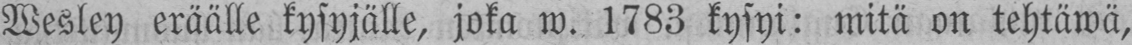Wesley eräälle kysyjälle, joka w. 1783 kysyi: mitä on tehtäwä,
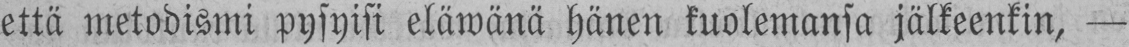että metodismi pysyisi eläwänä hänen kuolemansa jälkeenkin,—
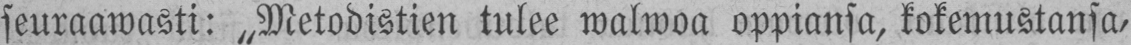seuraawasti: „Metodistien tulee walwoa oppiansa, kokemustansa,
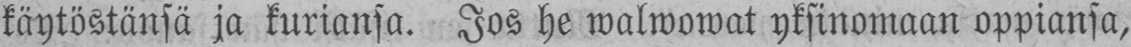käytöstänsä ja kuriansa. Jos he walwowat yksinomaan oppiansa,
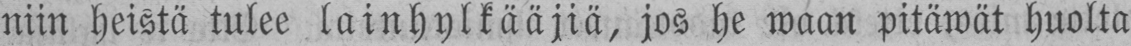niin heistä tulee lainhylkääjiä, jos he waan pitäwät huolta
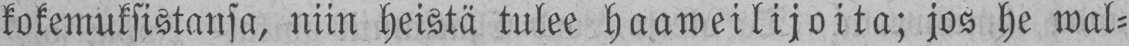kokemuksistansa, niin heistä tulee haaweilijoita; jos he wal-
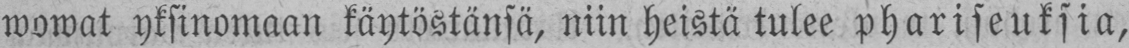wowat yksinomaan käytöstänsä, niin heistä tulee phariseuksia,
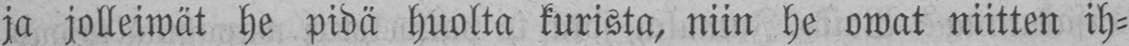ja jolleiwät he pidä huolta kurista, niin he owat niitten ih-
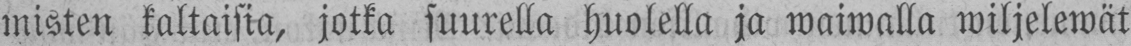misten kaltaisia, jotka suurella huolella ja waiwalla wiljelewät
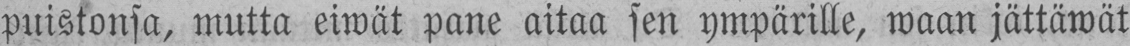puistonsa, mutta eiwät pane aitaa sen ympärille, waan jättäwät
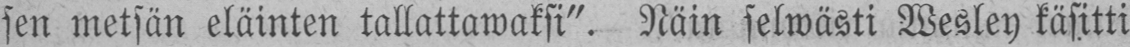sen metsän eläinten tallattawaksi". Näin selwästi Wesley käsitti
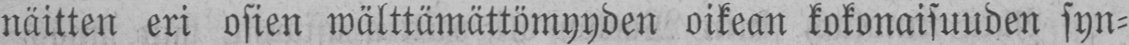näitten eri osien walttamattomyyden oikean kokonaisuuden syn-
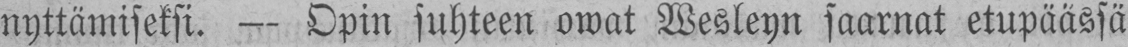nyttämiseksi. — Opin suhteen owat Wesleyn saarnat etupäässä
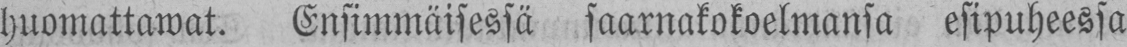huomattawat. Ensimmäisessä saarnakokoelmansa esipuheessa
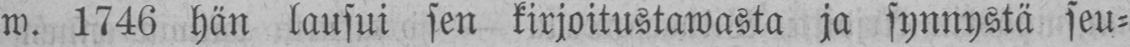w.1746 hän lausui sen kirjoitustawasta ja synnystä seu-
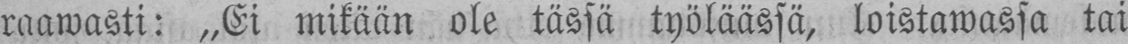raawasti: „Ei mikään ole tässä työläässä, loistawassa tai
